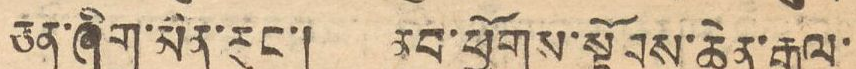ཅན་ཞིག་མིན་རུང་། ནུབ་ཕྱོགས་སྟོབས་ཆེན་རྒྱལ་
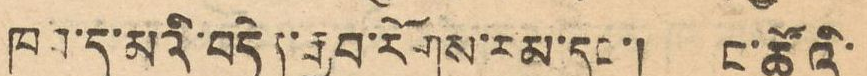ཁབ་དུ་མའི་བདེན་རྒྱབ་རོགས་རམ་དང་། ང་ཚོའི་
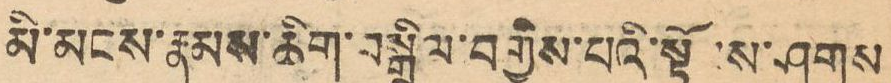མི་མངས་རྣམས་ཆིག་བསྒྲིལ་བགྱིས་པའི་སྟོབས་ཤུགས
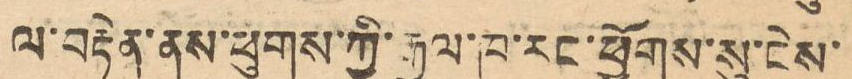ལ་བརྟེན་ནས་ཕུགས་ཀྱི་རྒྱལ་ཁབ་རང་ཕྱོགས་སུ་ངེས་
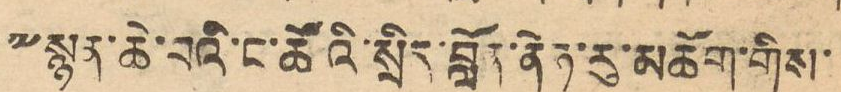༸སྙན་ཆེ་བའི་ང་ཚོའི་སྲིད་བློན་ནེཧ་རུ་མཆོག་གིས་
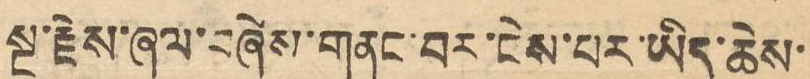སྔ་རྗེས་ཞལ་བཞེས་གནང་བར་ངེས་པར་ཡིད་ཆེས་
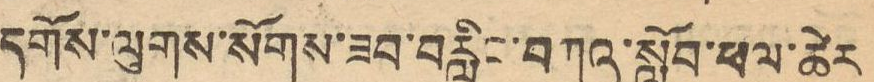དགོས་ལུགས་སོགས་ཟབ་བརླིང་བཀའ་སློབ་ཕལ་ཆེར
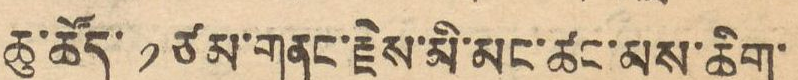ཆུ་ཚོད་ ༡ ཙམ་གནང་རྗེས་མི་མང་ཚང་མས་ཆིག་
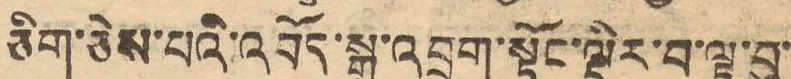ཅིག་ཅེས་པའི་འབོད་སྒྲ་འབྲུག་སྟོང་ལྡིར་བ་ལྟ་བུ་
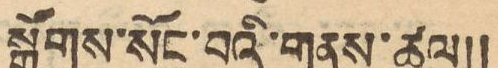སྒྲོགས་སོང་བའི་གནས་ཚུལ།།
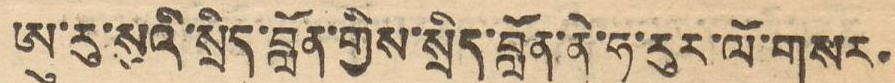ཨུ་རུ་སུའི་སྲིད་བློན་གྱིས་སྲིད་བློན་ནེ་ཧེ་རུར་ལོ་གསར་
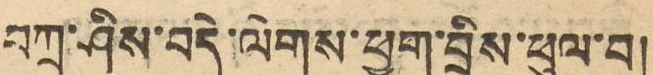བཀྲ་ཤིས་བདེ་ལེགས་ཕྱག་བྲིས་ཕུལ་བ།
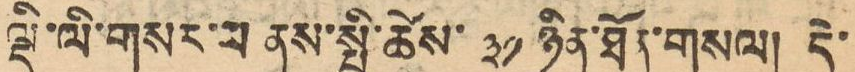ལྡི་ལི་གསར་པ ནས་སྤྱི་ཚེས་ ༣༡ ཉིན་ཐོན་གསལ། དེ་
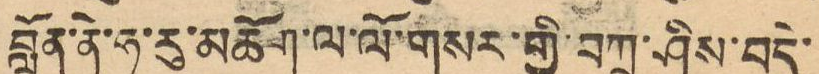བློན་ནེ་ཧ་རུ་མཆོག་ལ་ལོ་གསར་གྱི་བཀྲ་ཤིས་བདེ་
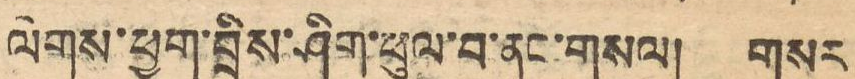ལེགས་ཕྱག་བྲིས་ཤིག་ཕུལ་བ་ནང་གསལ། གསར
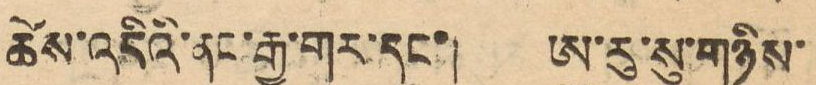ཚེས་འདིའི་ནང་རྒྱ་གར་དང་། ཨུ་རུ་སུ་གཉིས་
